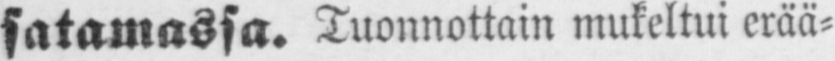satamassa. Tuonnottain mukeltui erää-
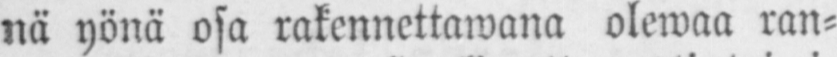nä yönä osa rakennettawana olewaa ran-
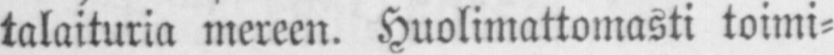talaituria mereen. Huolimattomasti toimi-
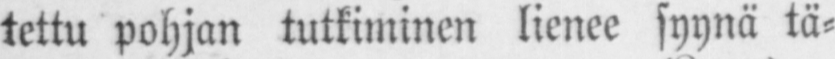tettu pohjan tutkiminen lienee syynä tä-
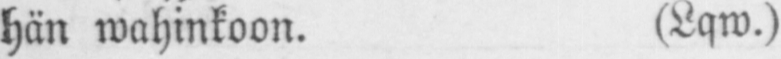hän wahinkoon. (Lqw.)
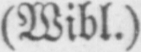(Wibl.)
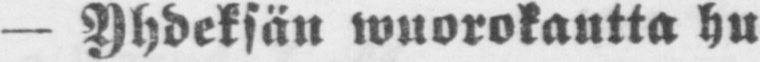— Yhdeksän wuorokautta Hu-
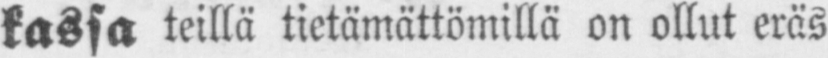kassa teillä tietämättömillä on ollut eräs
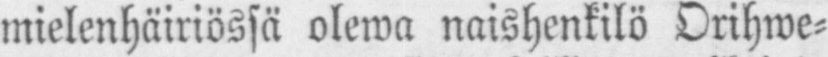mielenhäiriössä olewa naishenkilö Orihwe-
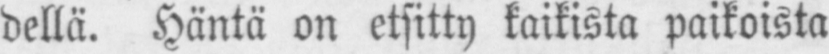dellä. Häntä on etsitty kaikista paikoista
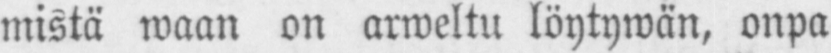mistä waan on arweltu löytywän, onpa
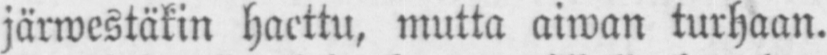järwestäkin haettu, mutta aiwan turhaan.
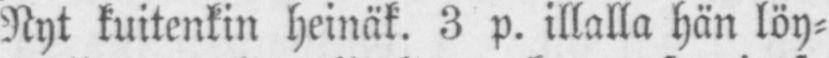Nyt kuitenkin heinäk. 3 p. illalla hän löy-
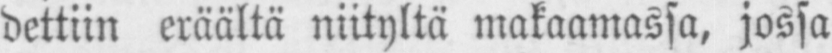dettiin eräältä niityltä makaamassa, jossa
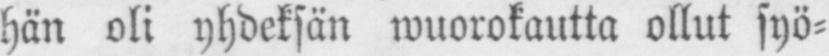hän oli yhdeksän wuorokautta ollut syö-
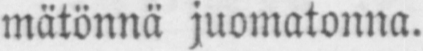mätönnä juomatonna.
